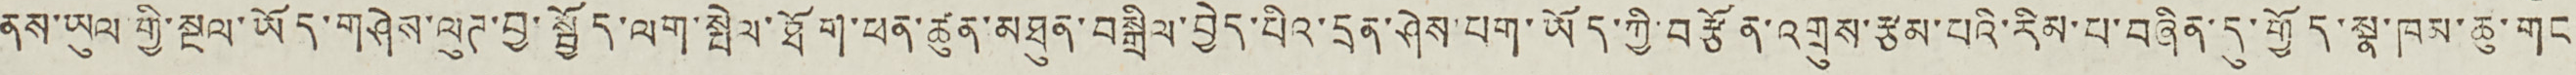ནས་ཡུལ གྱི་སྔལ་ཡོད་གཤེས་ལུཊ་བྱ་སྦྱོད་ལག་སྤེལ་ཐོག་ཕན་ཚུན་མཐུན་བསྒྲིལ་བྱེད་པིའ་དྲན་ཤེས་པག་ཡོད་ཀྱི་བརྩོན་འགྲུས་རྩམ་པའི་རིམ་པ་བཞིན་དུ་གྱོད་སྣ་ཁམ་ཆུ་གང་
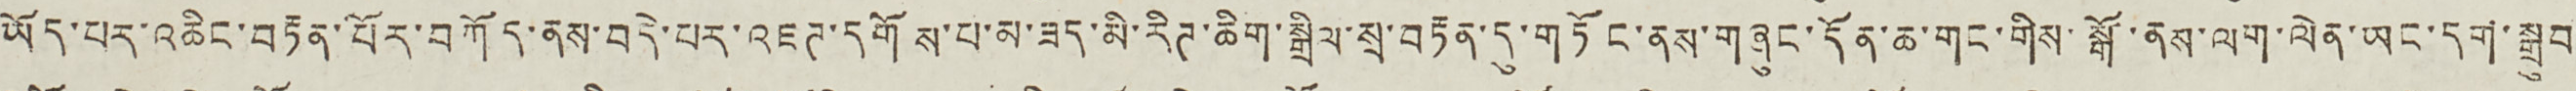ཡོད་པར་འཆིང་བརྟན་པོར་བཀོད་ནས་བདེ་པར་འཇཊ་དགོས་པ་མ་ཟད་མི་རིཊ་ཆིག་སྒྲིལ་སྲ་བརྟན་དུ་གཏོང་ནས་གཞུང་དོན་ཆ་གང་གིས་སྒོ་ནས་ལག་ལེན་ཡང་དག་སྒྲུབ་
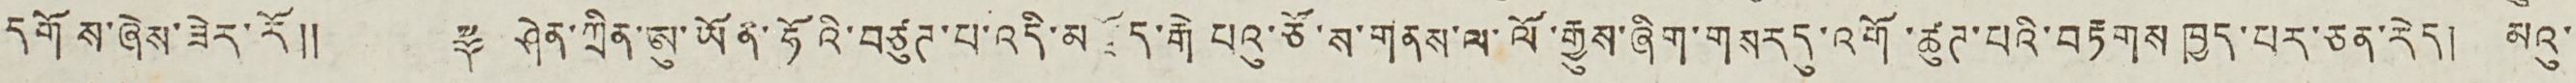དགོས་ཞེས་ཟེར་རོ༎ ༈ ཤེན་ཀྲིན་ཨུ་ཡོན་ཧོའི་བཙུཊ་པ་འདི་མཛོད་རྒེ པའུ་ཙོ་ས་གནས་ལ་ལོ་རྒྱུས་ཞིག་གསར དུ་འགོ་ཚུཊ་པའི་བརྟགས ཁྱད་པར་ཅན་རེད། མའུ་
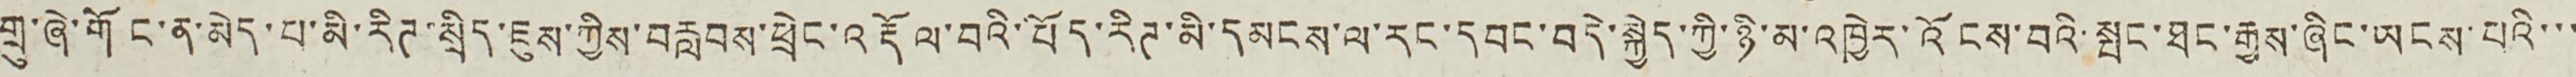གྲུ་ཞེ་གོང་ན་མེད་པ་མི་རིཊ་སྲིད་ཇུས་ཀྱིས་བརླབས་ཕྲེང་འརྡོལ་བའི་བོད་རིཊ་མི་དམངས་ལ་རང་དབང་བདེ་སྐྱེད་ཀྱི་ཉི་མ་འཁྱེར་འོངས་བའི་སྤང་ཐང་རྒྱས་ཞིང་ཡངས་པའི་་་
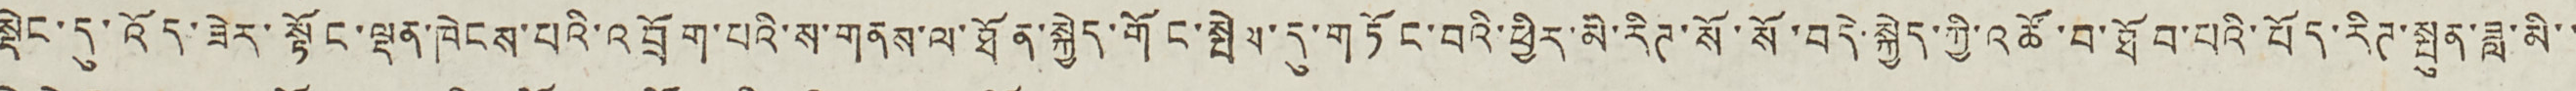སྡེང་དུ་འོད་ཟེར་སྟོང་ལྡན་ཁེངས་པའི་འབྲོག་པའི་ས་གནས་ལ་ཐོན་སྐྱེད་གོང་སྤེལ་དུ་གཏོང་བའི་ཕྱིར་མི་རིཊ་སོ་སོ་བདེ་སྐྱེད་ཀྱི་འཚོ་བ་ཐོབ་པའི་བོད་རིཊ་སྤུན་ཟླ་མི་་
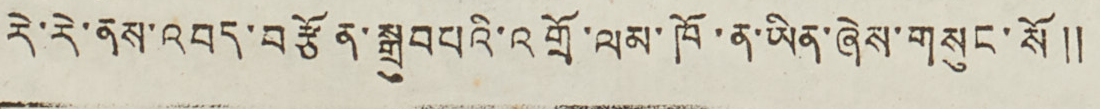རེ་རེ་ནས་འབད་བརྩོན་སྒྲུབཔའི་འགྲོ་ལམ་ཁོ་ན་ཡིན་ཞེས་གསུང་སོ ༎
